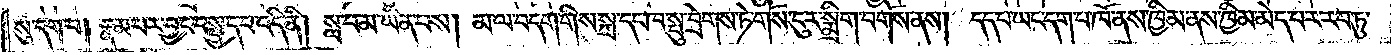སུ་དག་པ། རྣམ་པར་བྱང་བ་སྤྱད་པ་འདི་ནི། སླ་བ་མ་ཡིན་པས། མ་ལ་བདག་གིས་སྐྲ་དང་ཁ་སྤུ་བྲེགས་ཏེ་གོས་ངུར་སྨྲིག་བགོས་ནས། དད་པ་ཡང་དག་པ་ཁོ་ནས་ཁྱིམ་ནས་ཁྱིམ་མེད་པར་རབ་ཏུ་
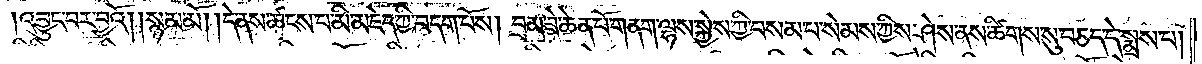འབྱུང་བར་བྱའོ། །སྙམ་མོ། །དེ་ནས་ཚངས་པ་མི་མཇེད་ཀྱི་བདག་པོས། བྲམ་ཟེ་ཆེན་པོ་གནག་ལྷས་སྐྱེས་ཀྱི་བསམ་པ་སེམས་ཀྱིས་ཤེས་ནས་ཚིགས་སུ་བཅད་དེ་སྨྲས་པ།
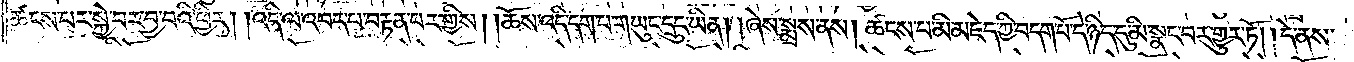ཚངས་པར་སྐྱེ་བར་བྱ་བའི་ཕྱིར། །འདི་ལ་འབད་པ་བརྟན་པར་གྱིས། །ཆོས་འདི་དག་པ་གཡུང་དྲུང་ཡིན། །ཞེས་སྨྲས་ནས། ཚངས་པ་མི་མཇེད་ཀྱི་བདག་པོ་དེ་ཉིད་དུ་མི་སྣང་བར་གྱུར་ཏོ། །དེ་ནས་
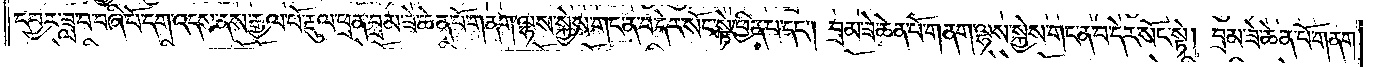དབྱར་ཟླ་བ་བཞི་པོ་དག་འདས་ནས་རྒྱལ་པོ་རྡུལ་ཕྲན་བྲམ་ཟེ་ཆེན་པོ་གནག་ལྷས་སྐྱེས་གང་ན་བ་དེར་སོང་སྟེ་ཕྱིན་པ་དང༌། བྲམ་ཟེ་ཆེན་པོ་གནག་ལྷས་སྐྱེས་གང་ན་བ་དེར་སོང་སྟེ། བྲམ་ཟེ་ཆེན་པོ་གནག་
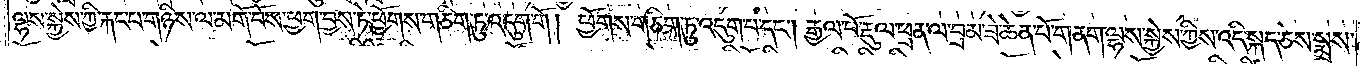ལྷས་སྐྱེས་ཀྱི་རྐང་པ་གཉིས་ལ་མགོ་བོས་ཕྱག་བྱས་ཏེ་ཕྱོགས་གཅིག་ཏུ་འདུག་གོ། ཕྱོགས་གཅིག་ཏུ་འདུག་པར་དང༌། རྒྱལ་པོ་རྡུལ་ཕྲན་ལ་བྲམ་ཟེ་ཆེན་པོ་གནག་ལྷས་སྐྱེས་ཀྱིས་འདི་སྐད་ཅེས་སྨྲས་
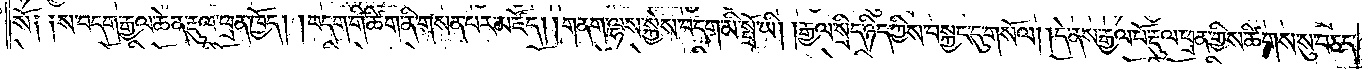སོ༑ ༑ས་བདག་རྒྱལ་ཆེན་རྡུལ་ཕྲན་ཁྱོད། །བདག་གི་ཚིག་ནི་གསན་པར་མཛོད། །གནག་ལྷས་སྐྱེས་བདག་མི་སྤྲོ་ཡི། །རྒྱལ་སྲིད་ཉིད་ཀྱིས་བསྐྱང་དུ་གསོལ། །དེ་ནས་རྒྱལ་པོ་རྡུལ་ཕྲན་གྱིས་ཚིགས་སུ་བཅད་
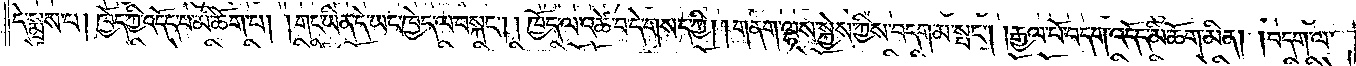དེ་སྨྲས་པ། ཁྱོད་ཀྱི་འདོད་པ་མི་ཆོག་པ། །གང་ཡིན་དེ་ཡང་ཁྱོད་ལ་བསྐང༌། །ཁྱོད་ལ་འཚེ་བ་དེ་གསད་ཀྱི། །གནག་ལྷས་སྐྱེས་ཀྱིས་བདག་མ་སྤང༌། །རྒྱལ་པོ་བདག་འདོད་མི་ཆོག་མིན། །བདག་ལ་
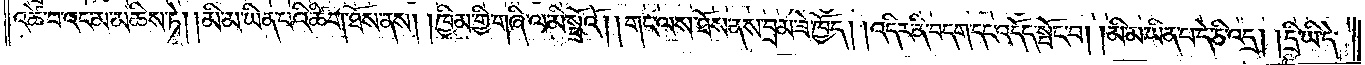འཚེ་བ་འང་མ་མཆིས་ཏེ། །མི་མ་ཡིན་པའི་ཚིག་ཐོས་ནས། །ཁྱིམ་གྱི་གཞི་ལ་མི་སྤྲོའོ། །གང་ལས་ཐོས་ནས་བྲམ་ཟེ་ཁྱོད། །འདིར་ནི་བདག་དང་འདོད་སྤོང་བ། །མི་མ་ཡིན་པ་དེ་ཅི་འདྲ། །དྲི་ཡི་དེ་
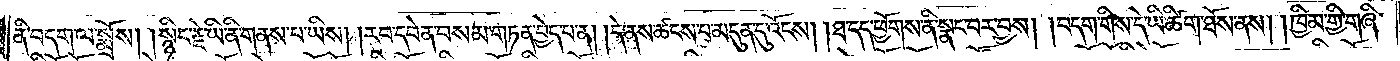ནི་བདག་ལ་སྨྲོས། །སྙིང་རྗེ་ཡི་ནི་གནས་པ་ཡིས། །རབ་དབེན་བསམ་གཏན་བྱེད་པ་ན། །དེ་ནས་ཚངས་པ་མདུན་དུ་འོངས། །ཐ་དད་ཕྱོགས་ནི་སྣང་བར་བྱས། །བདག་གིས་དེ་ཡི་ཚིག་ཐོས་ནས། །ཁྱིམ་གྱི་གཞི་
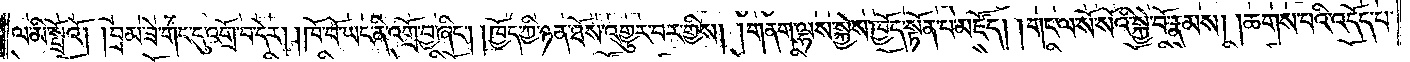ལ་མི་སྤྲོའོ། །བྲམ་ཟེ་གང་དུ་འགྲོ་བ་དེར། །ཁོ་བོ་ཡང་ནི་འགྲོ་བྱ་ཞིང༌། །ཁྱོད་ཀྱི་ཉན་ཐོས་འགྱུར་བར་གྱིས། །གནག་ལྷས་སྐྱེས་ཁྱོད་སྟོན་པ་མཛོད། །གང་ལ་སོ་སོའི་སྐྱེ་བོ་རྣམས། །ཆགས་པའི་འདོད་པ་
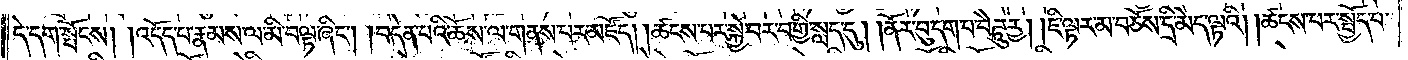དེ་དག་སྤོངས། །འདོད་པ་རྣམས་ལ་མི་བལྟ་ཞིང༌། །བདེན་པའི་ཆོས་ལ་གནས་པར་མཛོད། །ཚངས་པར་སྐྱེ་བར་བགྱི་སླད་དུ། །ནོར་བུ་དག་པ་བཻཌཱུརྱ། །ཇི་ལྟར་མ་བཅོས་དྲི་མེད་ལྟའི། །ཚངས་པར་སྤྱོད་པ་
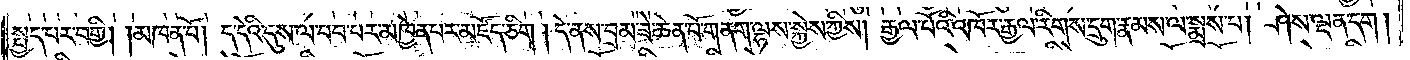སྤྱད་པར་བགྱི། །མཁན་པོ། ད་དེའི་དུས་ལ་བབ་པར་མཁྱེན་པར་མཛོད་ཅིག། དེ་ནས་བྲམ་ཟེ་ཆེན་པོ་གནག་ལྷས་སྐྱེས་ཀྱིས། རྒྱལ་པོའི་འཁོར་རྒྱལ་རིགས་དྲུག་རྣམས་ལ་སྨྲས་པ། ཤེས་ལྡན་དག།
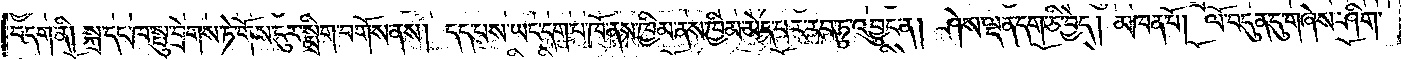བདག་ནི། སྐྲ་དང་ཁ་སྤུ་བྲེགས་ཏེ་གོས་ངུར་སྨྲིག་བགོས་ནས། དད་པས་ཡང་དག་པ་ཁོ་ནས་ཁྱིམ་ནས་ཁྱིམ་མེད་པར་རབ་ཏུ་འབྱུང་ན། ཤེས་ལྡན་དག་ཅི་བྱེད། མཁན་པོ། ལོ་བདུན་དུ་གཞེས་ཤིག་
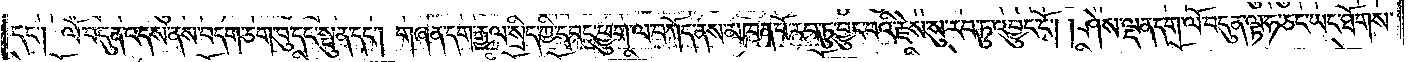དང༌། ལོ་བདུན་འདས་ནས་བདག་ཅག་བུ་དང་སྤུན་དང༌། གཞན་དག་རྒྱལ་སྲིད་ཀྱི་དབང་ཕྱུག་ལ་བཀོད་ནས་མཁན་པོ་རབ་ཏུ་བྱུང་བའི་རྗེས་སུ་རབ་ཏུ་འབྱུང་ངོ༌། །ཤེས་ལྡན་དག་ལོ་བདུན་ལྟ་ཧ་ཅང་ཡང་ཐོགས་
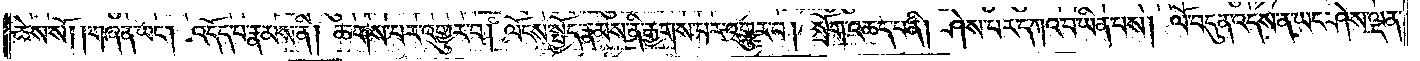ཆེས་སོ། །གཞན་ཡང༌། འདོད་པ་རྣམས་ནི། ཆགས་པར་འགྱུར་བ། ལོངས་སྤྱོད་རྣམས་ནི་རྒྱགས་པར་འགྱུར་བ། སྲོག་འཆད་པ་ནི། ཤེས་པར་དཀའ་བ་ཡིན་པས། ལོ་བདུན་འདས་ན་ཡང་ཤེས་ལྡན་
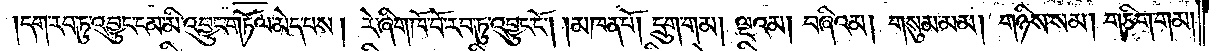དག་རབ་ཏུ་འབྱུང་ངམ་མི་འབྱུང་གཏོལ་མེད་པས། རེ་ཞིག་ཁོ་བོ་རབ་ཏུ་འབྱུང་ངོ༌། །མཁན་པོ། དྲུག་གམ། ལྔའམ། བཞིའམ། གསུམ་མམ། གཉིས་སམ། གཅིག་གམ།
